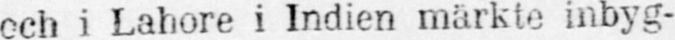och i Lahore i Indien märkte inbyg-
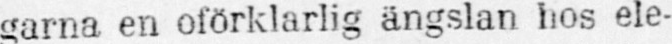garna en oförklarlig ängslan hos ele-
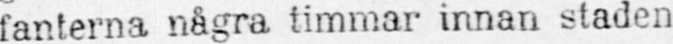fanterna några timmar innan staden
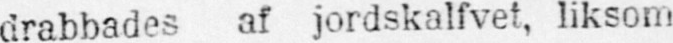drabbades af jordskalfvet, liksom
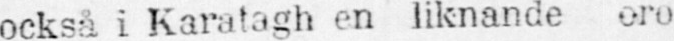också i Karatagh en liknande oro
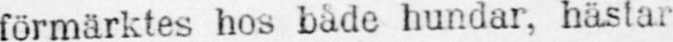förmärktes hos både hundar, hästar
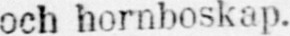och hornboskap.
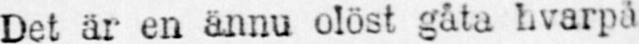Det är en ännu olöst gåta hvarpå
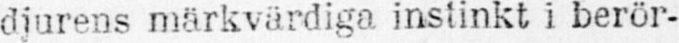djurens märkvärdiga instinkt i berör-
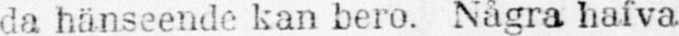da hänseende kan bero. Några hafva
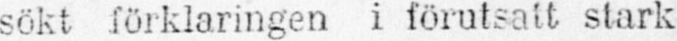sökt förklaringen i förutsatt stark
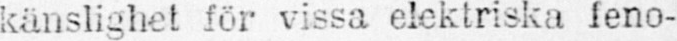känslighet för vissa elektriska feno-
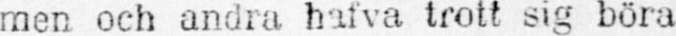men och andra hafva trott sig böra
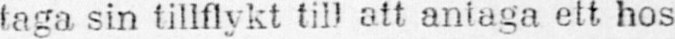taga sin tillflykt till att antaga ett hos
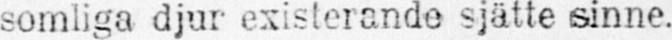somliga djur existerande sjätte sinne.
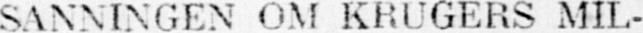SANNINGEN OM KRUGERS MIL-
